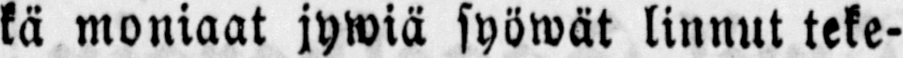kä moniaat jywiä syöwät linnut teke-
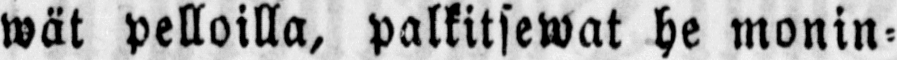wät pelloilla, palkitsewat he monin-
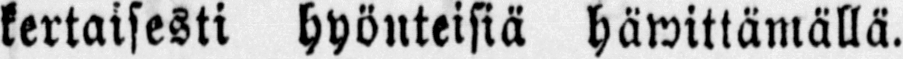kertaisesti hyönteisiä häwittämällä.
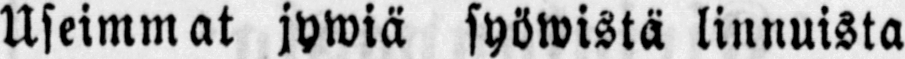Useimmat jywiä syöwistä linnuista
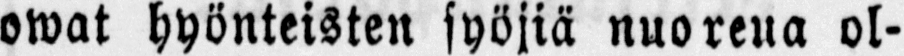owat hyönteisten syöjiä nuorena ol-
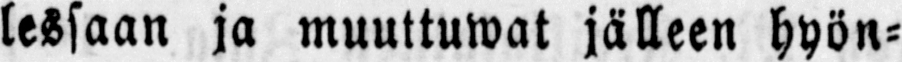lessaan ja muuttuwat jälleen hyön-
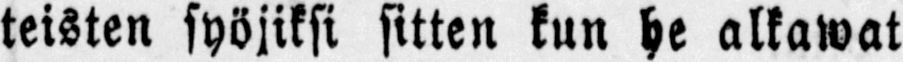teisten syöjiksi sitten kun he alkawat
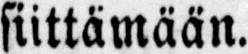siittämään.
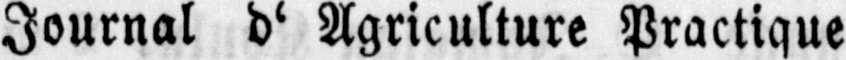Journal d' Agriculture Practique
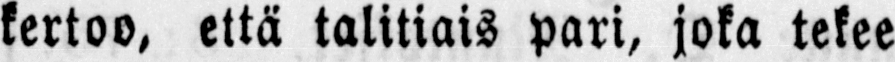kertoo, että talitiais pari, joka tekee
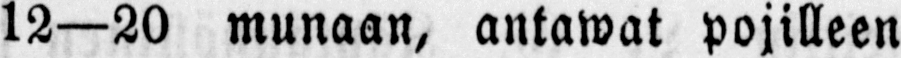12—20 munaan, antawat pojilleen
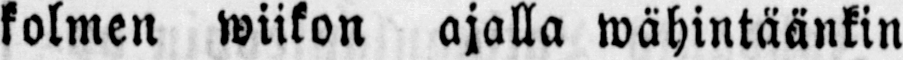kolmen wiikon ajalla wähintäänkin
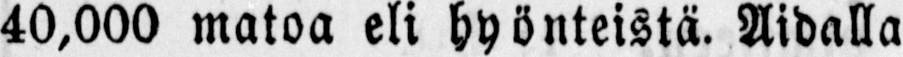40,000 matoa eli hyönteistä. Aidalla
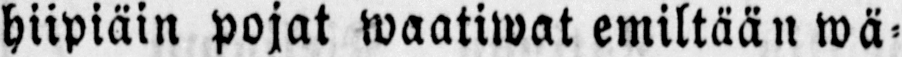hiipiäin pojat waatitwat emiltään wä-
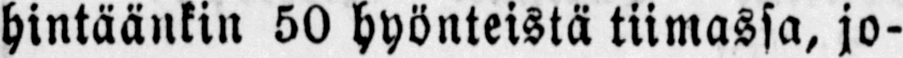hintäänkin 50 hyönteistä tiimassa, jo-
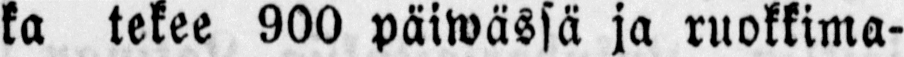ka tekee 900 päiwässä ja ruokkima-
